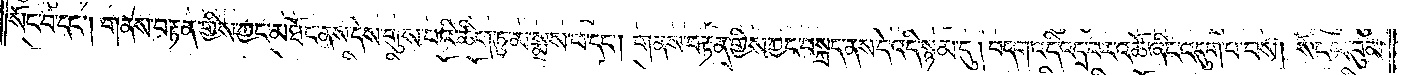སོང་བ་དང༌། གནས་བརྟན་གྱིས་ཀྱང་མཐོང་ནས་དེས་གུས་པའི་ཚིག་ཏུ་མ་སྨྲས་པ་དང༌། གནས་བརྟན་གྱིས་ཀྱང་བསྐྲད་ནས་དེ་འདི་སྙམ་དུ། བདག་འདི་འདྲ་བར་འཚོ་ཞིང་འདུག་པ་བས། སོང་ལ་བུམ་
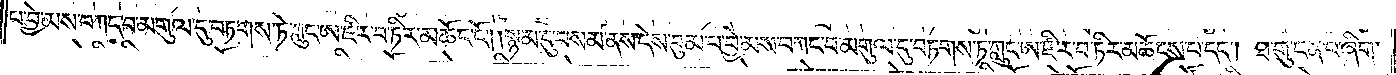པ་བྱེ་མས་བཀང་བ་མགུལ་དུ་བཏགས་ཏེ་ཀླུང་ཨ་ཛིར་བ་ཏིར་མཆོང་ངོ༌། །སྙམ་དུ་བསམ་ནས་དེས་བུམ་པ་བྱེ་མས་བཀང་བ་མགུལ་དུ་བཏགས་ཏ་ཀླུང་ཨ་ཛི་ར་བ་ཏིར་མཆོངས་པ་དང༌། ཐ་གུ་ངན་པ་ཞིག་
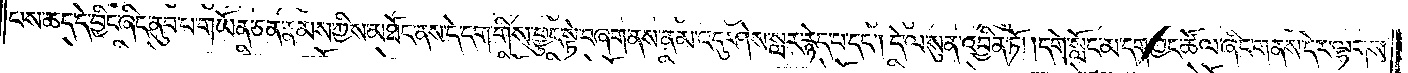པས་ཆད་དེ་བྱིང་ཞིང་ནུབ་པ་གཡོན་ཅན་རྣམས་ཀྱིས་མཐོང་ནས་དེ་དག་གིས་ཕྱུང་སྟེ་བཞག་ནས་ནམ་འདུ་ཤེས་སླར་རྙེད་པ་དང༌། དེ་ལ་སུན་འབྱིན་ཏོ། །དགེ་སློང་མ་དག་ཀྱང་ཚོལ་ཞིང་གནས་དེར་ལྷགས་
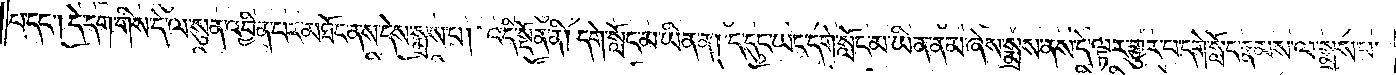པ་དང༌། དེ་དག་གིས་དེ་ལ་སུན་འབྱིན་པར་མཐོང་ནས་དེས་སྨྲས་པ། འདི་སྔོན་ནི། དགེ་སློང་མ་ཡིན་ན། ད་དུང་ཡང་དགེ་སློང་མ་ཡིན་ནམ་ཞེས་སྨྲས་ནས་དེ་ལྟར་གྱུར་པ་དགེ་སློང་རྣམས་ལ་སྨྲས་པ་
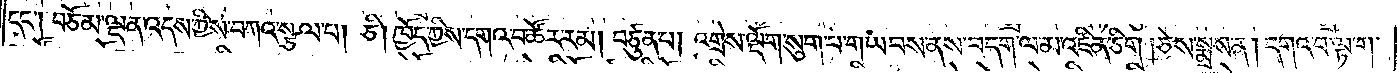དང༌། བཅོམ་ལྡན་འདས་ཀྱིས་བཀའ་སྩལ་པ། ཅི། ཁྱོད་ཀྱིས་དགའ་བ་ཚོར་རམ། བཙུན་པ། འགྲེས་ལྡོག་སུག་པ་གཡབས་ནས་བདག་ལ་མ་འཛིན་ཅིག །ཅེས་སྨྲས་ན། དགའ་བ་ལྟ་ག་
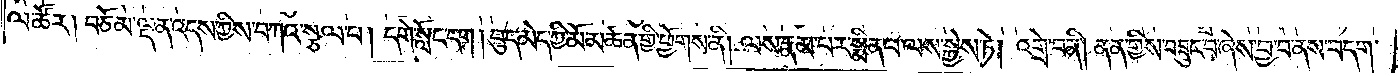ལ་ཚོར། བཅོམ་ལྡན་འདས་ཀྱིས་བཀའ་སྩལ་པ། དགེ་སློང་དག །བུད་མེད་ཀྱི་མོ་མཚན་གྱི་ཕྱོགས་ནི། ལས་རྣམ་པར་སྨིན་པ་ལས་སྐྱེས་ཏེ། འགྲེ་བ་ནི། ནན་གྱིས་བཟུང་བ་ཞེས་བྱ་བ་ནས་བདག་
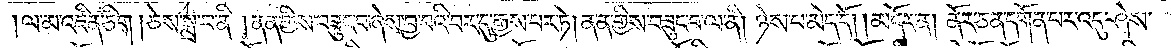ལ་མ་འཛིན་ཅིག །ཅེས་སྨྲ་བ་ནི། ནན་གྱིས་བཟུང་བ་ཞེས་བྱ་བའི་བར་དུ་རྒྱས་པར་ཏེ། ནན་གྱིས་བཟུང་བ་ལ་ནི། ཉེས་པ་མེད་དོ། །མདོར་ན། ནོར་ཅན་དགོན་པར་འདུ་ཤེས་
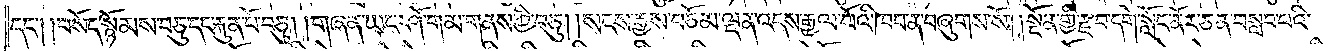དང༌། །བསོད་སྙོམས་བཅུ་དང་རྐུན་པོ་བཅུ། །གཞན་ཡང་ཤོ་གམ་གནས་ཀྱི་བཅུ། །སངས་རྒྱས་བཅོམ་ལྡན་འདས་རྒྱལ་པོའི་ཁབ་ན་བཞུགས་སོ། །སྔོན་གྱི་རྫབ་དགེ་སློང་ནོར་ཅན་བསླབ་པའི་
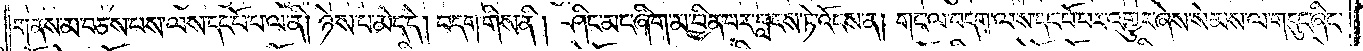གནས་མ་བཅས་པས་ལས་དང་པོ་པ་ལ་ནི། ཉེས་པ་མེད་དེ། བདག་གིས་ནི། ཤིང་མང་ཞིག་མ་བྱིན་པར་བླངས་ཏེ་འོངས་ན། གང་ལ་བདག་ལས་དང་པོ་པར་འགྱུར་ཞེས་སེམས་ལ་གདུང་ཞིང་
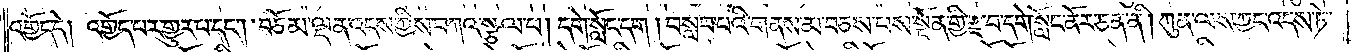འགྱོད་དེ། འགྱོད་པར་གྱུར་པ་དང༌། བཅོམ་ལྡན་འདས་ཀྱིས་བཀའ་སྩལ་པ། དགེ་སློང་དང༌། བསླབ་པའི་གནས་མ་བཅས་པས་སྔོན་གྱི་རྫ་བ་དགེ་སློང་ནོར་ཅན་ནི། ཀུན་ལས་ཀྱང་འདས་ཏེ་
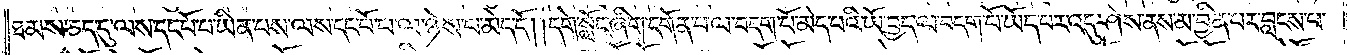ཐམས་ཅད་དུ་ལས་དང་པོ་པ་ཡིན་པས་ལས་དང་པོ་པ་ལ་ཉེས་པ་མེད་དོ། །དགེ་སློང་ཞིག་དགོན་པ་ལ་བདག་པོ་མེད་པའི་ཡོ་བྱད་ལ་བདག་པོ་ཡོད་པར་འདུ་ཤེས་ནས་མ་བྱིན་པར་བླངས་པ་
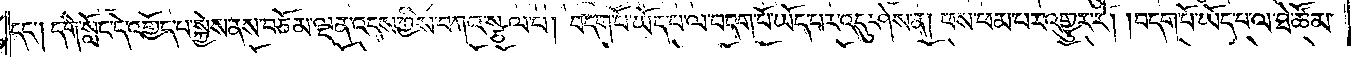དང༌། དགེ་སློང་དེ་འགྱོད་པ་སྐྱེས་ནས་བཅོམ་ལྡན་འདས་ཀྱིས་བཀའ་སྩལ་པ། བདག་པོ་ཡོད་པ་ལ་བདག་པོ་ཡོད་པར་འདུ་ཤེས་ན། ཕས་ཕམ་པར་འགྱུར་རོ། །བདག་པོ་ཡོད་པ་ལ་ཐེ་ཚོམ་
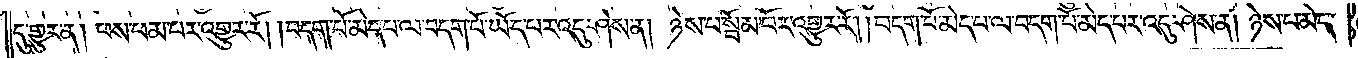དུ་གྱུར་ན། ཕས་ཕམ་པར་འགྱུར་རོ། །བདག་པོ་མེད་པ་ལ་བདག་པོ་ཡོད་པར་འདུ་ཤེས་ན། ཉེས་པ་སྦོམ་པོར་འགྱུར་རོ། །བདག་པོ་མེད་པ་ལ་བདག་པོ་མེད་པར་འདུ་ཤེས་ན། ཉེས་པ་མེད་
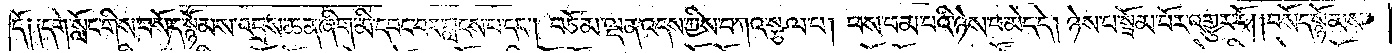དོ༑ ༑དགེ་སློང་གིས་བསོད་སྙོམས་འབྲས་ཆན་ཞིག་མི་དབང་བར་བླངས་པ་དང༌། བཅོམ་ལྡན་འདས་ཀྱིས་བཀའ་སྩལ་པ། ཕས་ཕམ་པའི་ཉེས་པ་མེད་དེ། ཉེས་པ་སྦོམ་པོར་འགྱུར་རོ། །བསོད་སྙོམས་
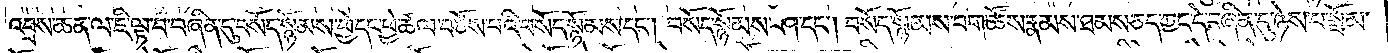འབྲས་ཆན་ལ་ཇི་ལྟ་བ་བཞིན་དུ་བསོད་སྙོམས་ཕྱེ་དང་ཕྱེ་ཚལ་བཙོས་པའི་བསོད་སྙོམས་དང༌། བསོད་སྙོམས་ཤ་དང༌། བསོད་སྙོམས་བག་ཚོས་རྣམས་ཐམས་ཅད་ཀྱང་དེ་བཞིན་དུ་ཉེས་པ་སྦོམ་
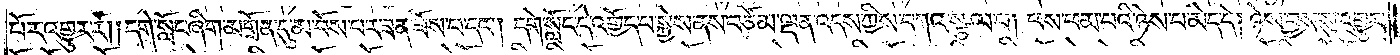པོར་འགྱུར་རོ། །དགེ་སློང་ཞིག་མགྲོན་དུ་མ་བོས་པར་ཟན་ཟོས་པ་དང༌། དགེ་སློང་དེ་འགྱོད་པ་སྐྱེས་ནས་བཅོམ་ལྡན་འདས་ཀྱིས་བཀའ་སྩལ་པ། ཕས་ཕམ་པའི་ཉེས་པ་མེད་དེ། ཉེས་བྱས་སུ་འགྱུར་
